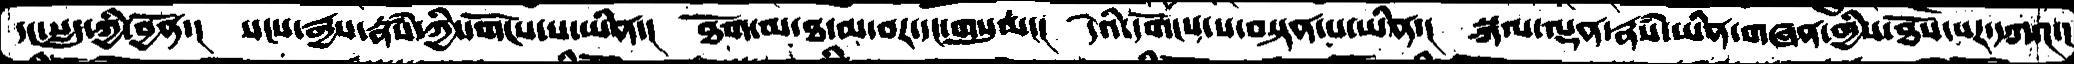དང་སླད་ཀྱི་བྱོན་།   སངས་རྒྱས་རྣཾས་ཀྱི་དགོངས་པ་ཡིན་།  ཐོག་མ་ཐ་མ་བར་དང་གསུམ་།  དེའི་དགོངས་པ་བསྟན་པ་ཡིན་།  སྐལ་ལྡན་རྣཾས་ཡིན་གཞན་གྱིས་ཐོས་པར་དཀའ་།
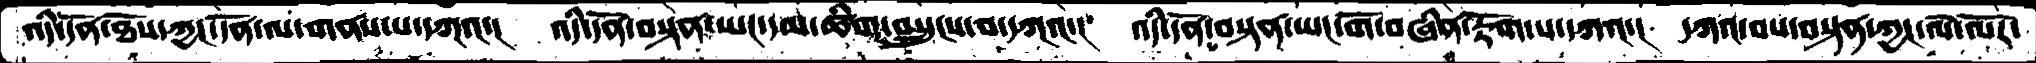འདི་དོན་ཐོས་ཀྱང་དོན་ལ་གནས་པ་དཀའ་།  འདི་དོན་བསྟན་ཡང་དམ་ཚིག་བསྲུངས་བ་དཀའ་།  འདི་དོན་བསྟན་ཡང་གོ་བཞིན་རྟོག་པ་དཀའ་།  དཀའ་བས་བསྟན་ཀྱང་ལེ་ལོར་
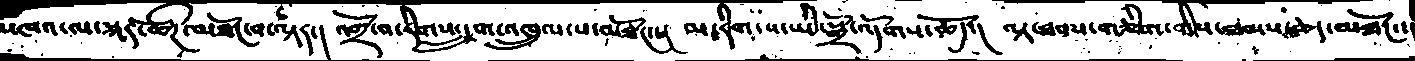མཁའ་ལ་སྐར་ཚོཌ་མཐོང་བ་ལྟར་།  འགྲོ་བ་རིགས་དྲུག་འཁྲུལ་པ་མཐོང་་།  མ་རིག་པ་ཡི་སྒྲོ་འདོགས་ཆོད་།  ལྟ་ཐབས་གཅིག་གིས་ཐམས་ཅད་མཐོང་་།
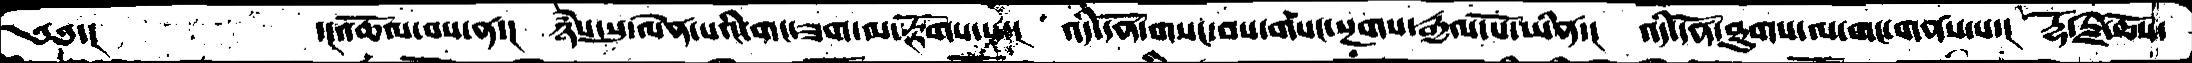༄༅་།       ་།འཆོལ་བས་ན་།  ཉཾས་སུ་ལེན་པའི་གང་ཟག་མ་རྟོགས་པ་།   འདི་དོན་གསང་བས་གསང་སྔགས་རྒྱལ་པོ་ཡིན་།  འདི་དོན་ཐུགས་ལ་གང་གནས་པ་།  རྡོ་རྗེ་ཆོས་
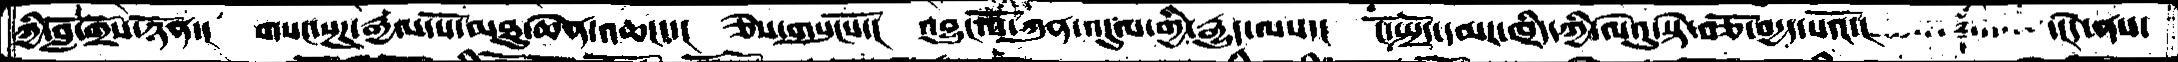ཀྱི་བློ་གྲོས་ཉོན་།  གསང་སྔཌ་རྒྱལ་པོ་མཐུ་ཆེན་འཆང་་།  ཅེས་གསུངསོ་།  འབྱུང་པོ་ཀུན་འདུལ་གྱི་རྒྱུད་ལས་།  ངོ་སྤྲོད་དམར་ཁྲིད་ཀྱི་ལེའུ་སྟེ་བཅོ་བདྱད་པའོ་།     ་།དེ་ནས་
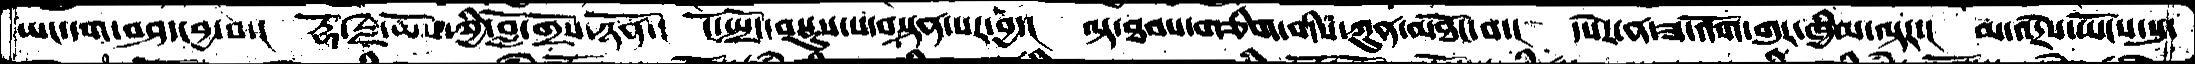ཡང་དག་བཤད་བྱ་བ་།  རྡོ་རྗེ་ཆོས་ཀྱི་བློ་གྲོས་ཉོན་།  ངོ་སྤྲོད་བསྡུས་པ་བསྟན་པར་བྱ་།  ལྟ་ཐབས་གཅིག་གིས་ཀུན་མཐོང་བ་།  དཔེར་ན་ཟ་འོག་གུར་ཁྱིམ་ལྟར་།  མ་འདྲེས་ཡོངས་སུ་
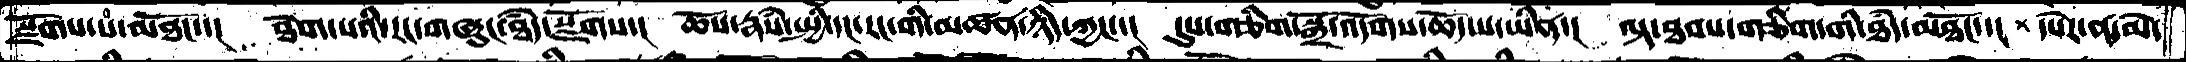སྫོགས་པ་མཐོང་་།  ཐོག་པའི་རང་གཞུང་ཐཾད་སྫོགས་།  ཆོས་རྣཾས་སྤྱི་དང་རང་གི་མཚན་ཉིད་ཀྱང་་།  དུས་གཅིག་སྒྲོ་འདོགས་ཆོད་པ་ཡིན་།  ལྟ་ཐབས་གཅིག་གི་ཐཾད་མཐོང་་།  དཔེར་ན་མེ་
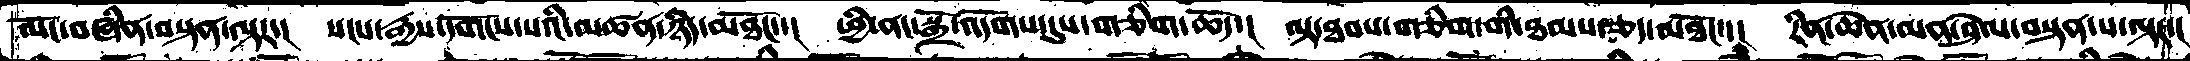ལོང་བཞིན་བསྟན་ལྟར་།  སངས་རྒྱས་དགོངས་པའི་མཚན་ཉིད་མཐོང་།  ཕྱི་ནང་སྒྲོ་འདོགས་དུས་གཅིག་ཆོད་།  ལྟ་ཐབས་གཅིག་གི་ཐམས་ཅད་མཐོང་་།  རིན་ཆེན་མན་ཤེལ་བསྟན་པ་ལྟར་།
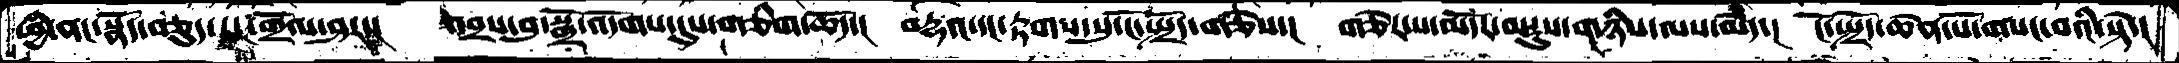ཕྱི་ནང་སྣོད་བཅུད་རང་གྲོལ་ཤར་།  འབྲས་བུ་སྒྲོ་འདོགས་དུས་གཅིག་ཆོད་།  བརྡའ་དང་རྟགས་སུ་ངོ་སྤྲོད་གཅེས་།  གཅེར་པ་མདོར་བསྡུས་གཉིས་ལས་མེད་།  ངོ་སྤྲོད་ཆེན་པོ་གསང་བའི་སྟེ་།
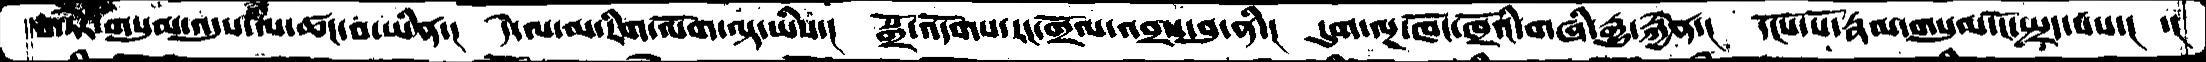གཏོར་གསུམ་འདུས་ལ་ཚང་བ་ཡིན་།  དེ་ལ་མ་རིག་ལོག་ལྟ་ཡིས་།  སྒྲོ་འདོགས་རང་གྲོལ་འབྲས་བུ་ནི་།  དུག་ལྔ་ཁངོ་ཁྲོའི་གཞི་རྒྱུ་རྐྱེན་།  དངོས་པོ་རྣམ་གསུམ་ངོ་སྤྲད་པས་།  ་།
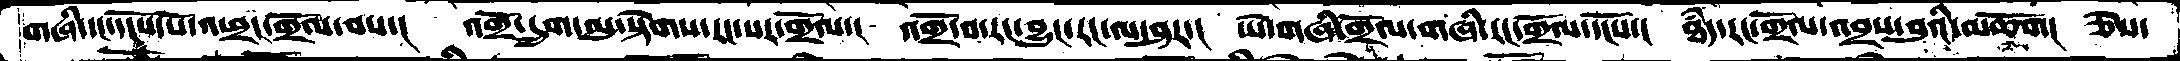གཞི་དང་དངོས་པོ་འཕྲད་གྲོལ་བས་།  འགྲོ་དྲུག་མུ་སྟེགས་རང་སར་གྲོལ་།  འགྲོ་བ་རང་བྱུང་རང་ལ་ཤར་།  ཡེ་གཞི་གྲོལ་གཞི་རང་གྲོལ་དངོས་།  ཐཾད་རང་གྲོལ་འབྲས་བུའི་མཆོག།  ཅེས་
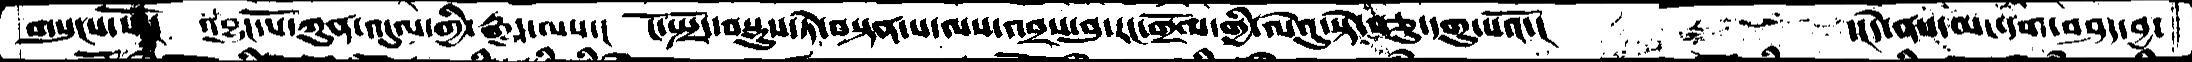གསུངས་སོ་།   འབྱུང་པོ་ཀུན་འདུལ་གྱི་རྒྱུད་ལས་།  ངོ་སྤྲོད་བསྡུས་ཏེ་བསྟན་པ་ལས་འབྲས་བུ་རང་གྲོལ་གྱི་ལེའུ་སྟེ་བཅུ་དགུ་པའོ་།      ་།དེ་ནས་ཡང་དག་བཤད་བྱ་
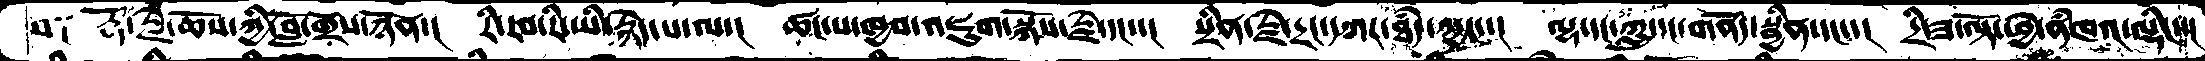བ༑   རྡོ་རྗེ་ཆོས་ཀྱི་བློ་གྲོལ་ཉོན་།  རི་རབ་རི་ཡི་རྙེད་པ་ལ་།  ཚང་པ་ཁྱབ་འཇུག་སྐོས་རྗེ་དང་་།  སྲིན་རྗེ་དྲང་དཀར་ཐཾད་ཀྱང་་།  ལྷ་དང་ཀླུ་དང་གནོད་སྦྱིན་དང་་།  དྲི་ཟ་ལྟོ་ཕྱེ་ནཾཁའ་ལྡིང་་།
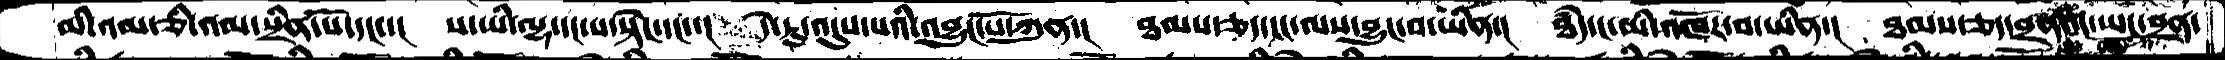མི་འམ་ཅི་འམ་སྲིན་པོ་དང་་།  ས་ཡི་ལྷ་དང་ས་སྟེང་དང་་།  དེ་རུ་འདུས་པའི་འབྱུང་པོ་ཀུན་།  ཐམས་ཅད་ངང་ལས་བྱུང་བ་ཡིན་།  ཐཾད་ང་མི་འཁོར་བ་ཡིན་།  ཐམས་ཅད་བྲན་དང་ཡང་བྲན་
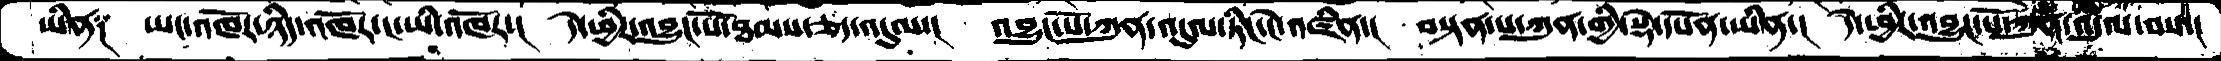ཡིན༑  ཡང་འཁོར་ཉིད་འཁོར་ང་ཡི་འཁོར་།  དེ་ཕྱིར་འབྱུང་པོ་ཐམས་ཅད་འདུལ་།  འབྱུང་པོ་ཀུན་འདུལ་ཏིང་ངེ་འཛིན་།  བསྟན་པ་ཀུན་གྱི་སྡེ་དཔོན་ཡིན་།  དེ་ཕྱིར་འབྱུང་པོ་ཀུན་འདུལ་བས་།
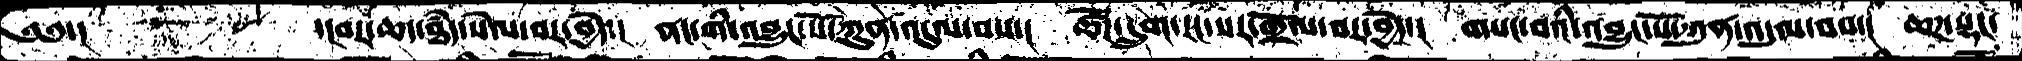༄༅་།        ་།བར་ཆད་ཐཾད་སེལ་བར་བྱེད་།   ནང་གི་འབྱུང་པོ་ཀུན་འདུལ་བས་།   ཚོཌ་དྲུག་རང་སར་གྲོལ་བར་བྱེད་།  གསང་བའི་འབྱུང་པོ་ཀུན་འདུལ་བས་།  ཆཌ་སྡང་
